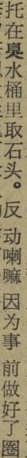托在臭水桶里取石头。反动喇嘛因为事 前做好了圈
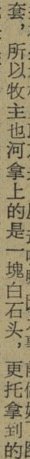套，所以牧主也河拿上的是一塊白石头，更托拿到的
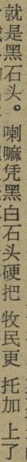就是黑石头。喇嘛凭黑白石头硬把 牧民更 托加 上了
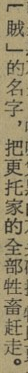「賊」的名字，把更托家的全部牲畜赶走。
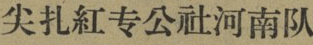尖扎紅專公社河南队
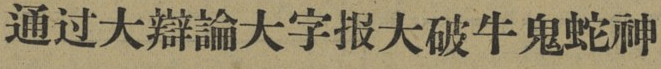通过大辯論大字报大破牛鬼蛇神
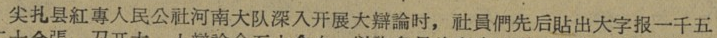尖扎县紅專人民公社河南大队深入开展大辯論时，社員們先后貼出大字报一千五
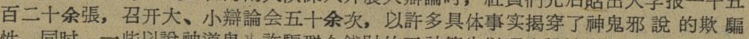百二十余張，召开大、小辯論会五十余次，以許多具体事实揭穿了神鬼邪 說 的欺 騙
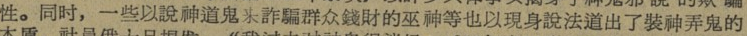性。同时，一些以說神道鬼来诈騙群众錢財的巫神等也以現身說法道出了装神弄鬼的
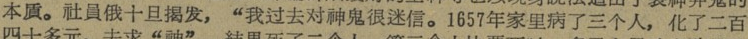本貭。社員俄十旦揭发，“我过去对神鬼很迷信。1657年家里病了三个人，化了二百
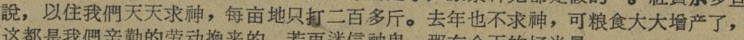說，以往我們天天求神，每亩地只打二百多斤。去年也不求神，可粮食大大增产了，
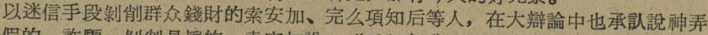以迷信手段剝削群众錢財的索安加、完么項知后等人，在大辯論中也承认說神弄
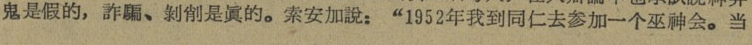鬼是假的，诈騙、剝削是眞的。索安加說：“1952年，我到同仁去参加一个巫神会。当
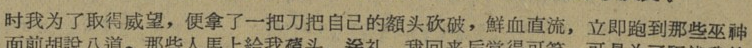时我为了取得威望，便拿了一把刀把自己的額头砍破，鲜血直流，立即跑到那些巫神
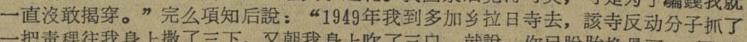一直沒敢揭穿。”完么項知后說：“1949年我到多加乡拉日寺去，該寺反动分子抓了
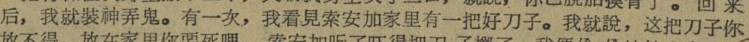后，我就装神弄鬼。有一次，我看見索安加家里有一把好刀子。我就說，这把刀子你
